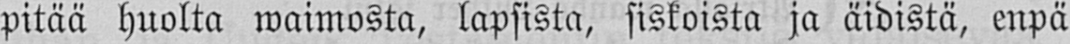pitää huolta waimosta, lapsista, siskoista ja äidistä, enpä
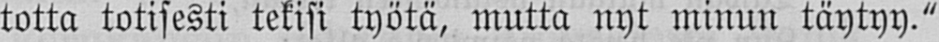totta totisesti tekisi työtä, mutta nyt minun täytyy."
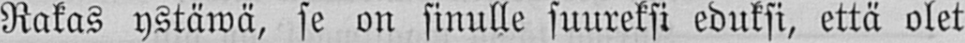Rakas ystäwä, se on sinulle suureksi eduksi, että olet
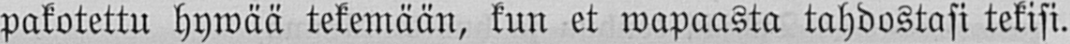pakotettu hywää tekemään, kun et wapaasta tahdostasi tekisi.
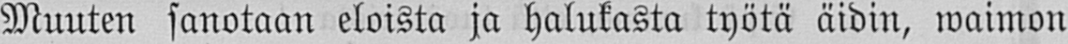Muuten sanotaan eloista ja halukasta työtä äidin, waimon
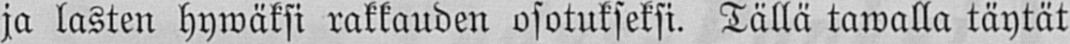ja lasten hywäksi rakkauden osotukseksi. Tällä tawalla täytät
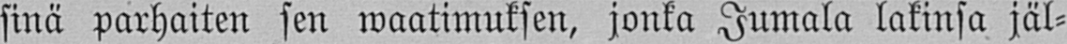sinä parhaiten sen waatimuksen, jonka Jumala lakinsa jäl-
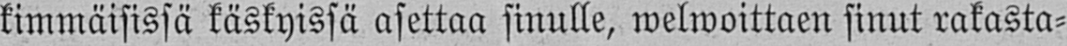kimmäisissä käskyissä asettaa sinulle, welwoittaen sinut rakasta-
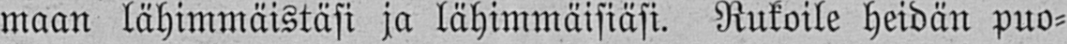maan lähimmäistäsi ja lähimmäisiäsi. Rukoile heidän puo-
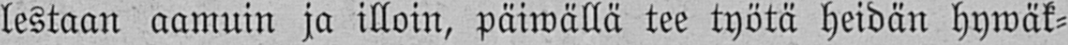lestaan aamuin ja illoin, päiwällä tee työtä heidän hywäk-
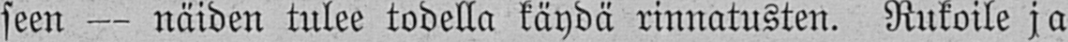seen - näiden tulee todella käydä rinnatusten. Rukoile ja
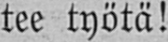tee työtä!
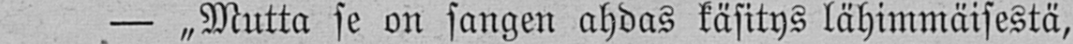- „ Mutta se on sangen ahdas käsitys lähimmäisestä,
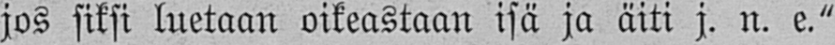jos siksi luetaan oikeastaan isä ja äiti j. n. e."
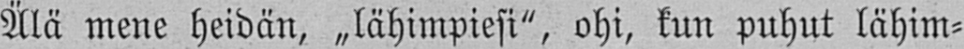Älä mene heidän, „lähimpiesi", ohi, kun puhut lähim-
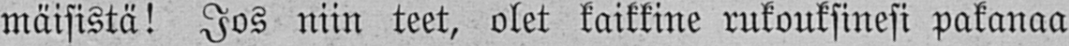mäisistä! Jos niin teet, olet kaikkine rukouksinesi pakanaa
